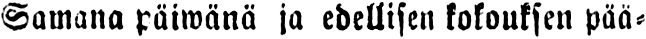Samana päiwänä ja edellisen kokouksen pää-
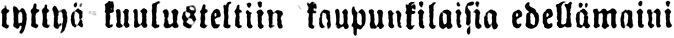tyttyä kuulusteltiin kaupunkilaisia edellämaini-
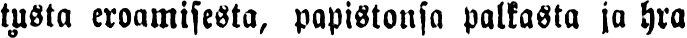tusta eroamisesta, papistonsa palkasta ja hra
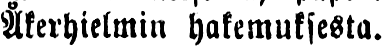Åkerhielmin hakemuksesta.
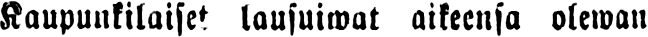Kaupunkilaiset lausuiwat aikeensa olewan
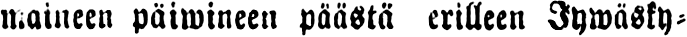maineen päiwineen päästä erilleen Jywäsky-
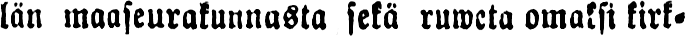län maaseurakunnasta sekä ruweta omaksi kirk-
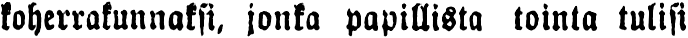koherrakunnaksi, jonka papillista tointa tulisi
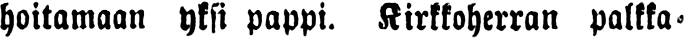hoitamaan yksi pappi. Kirkkoherran palkka-
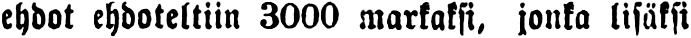ehdot ehdoteltiin 3000 markaksi, jonka lisäksi
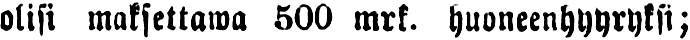olisi maksettawa 500 mrk. huoneenhyyryksi;
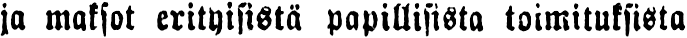ja maksot erityisistä papillisista toimituksista
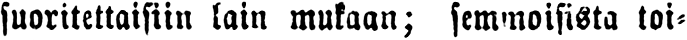suoritettaisiin lain mukaan; semmoisista toi-
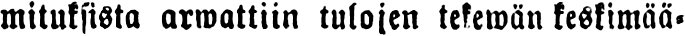mituksista arwattiin tulojen tekewän keskimää-
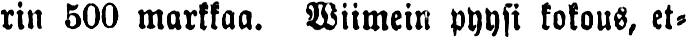rin 500 markkaa. Wiimein pyysi kokous, et-
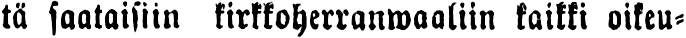tä saataisiin kirkkoherranwaaliin kaikki oikeu-
